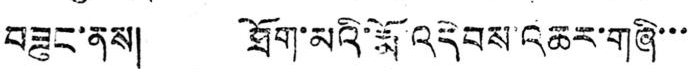བཟུང་ནས། ཐོག་མའི་རྨོ་འདེབས་འཆར་གཞི་་་
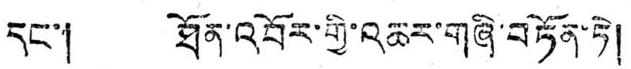དང་། ཐོན་འབོར་གྱི་འཆར་གཞི་བཏོན་ཏེ།
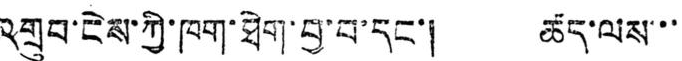འགྲུབ་ངེས་ཀྱི་ཁག་ཐེག་བྱ་བ་དང་། ཚད་ལས་་་
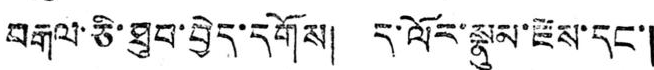བརྒལ་ཅི་ཐུབ་བྱེད་དགོས། ད་ལོར་སྣུམ་རྫས་དང་།
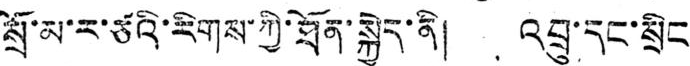སྲོ་མ་ར་ཙའི་རིགས་ཀྱི་ཐོན་སྐྱེད་ནི། འབྲུ་དང་སྲིང
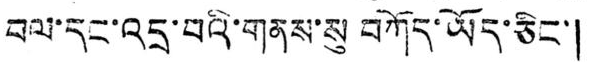བལ་དང་འདྲ་བའི་གནས་སུ བཀོད་ཡོད་ཅིང་།
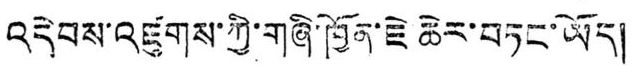འདེབས་འཛུགས་ཀྱི་གཞི་ཁྱོན་ཇེ ཆེར་བཏང་ཡོད།
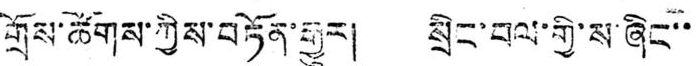གྲོས་ཚོགས་ཀྱིས་བཏོན་རྒྱུར། སྲིང་བལ་གྱི་ས་ཞིང་་
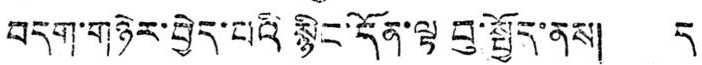བདག་གཉེར་བྱེད་པའི སྙིང་དོན་ལྟ བུ་སྤྱོད་ནས། ད
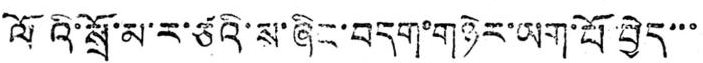ལོའི་སྲོ་མ་ར་ཙའི་ས་ཞིང་བདག་གཉེར་ཡག་པོ་བྱེད་་་
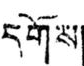དགོས།
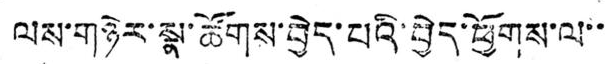ལས་གཉེར་སྣ་ཚོགས་བྱེད་པའི་བྱེད་ཕྱོགས་ལ་་
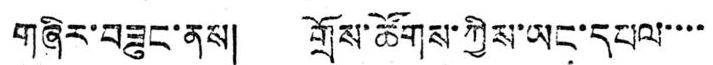གཞིར་བཟུང་ནས། གྲོས་ཚོགས་ཀྱིས་ཡང་དཔལ་་་་
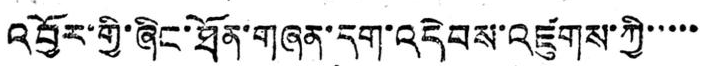འབྱོར་གྱི་ཞིང་ཐོན་གཞན་དག་འདེབས་འཛུགས་ཀྱི་་་་་
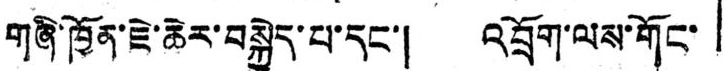གཞི་ཁྱོན་ཇེ་ཆེར་བསྐྱེད་པ་དང་། འབྲོག་ལས་གོང་
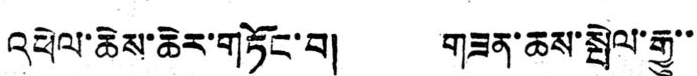འཕེལ་ཆེས་ཆེར་གཏོང་བ། གཟན་ཆས་སྤེལ་རྒྱུ་་
